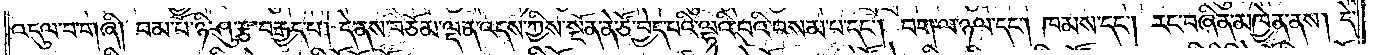འདུལ་བ་གཞི། བམ་པོ་ཉི་ཤུ་རྩ་བརྒྱད་པ། དེ་ནས་བཅོམ་ལྡན་འདས་ཀྱིས་སྔོན་ནེ་ཙོ་བྱེད་པའི་ལྷའི་བུའི་བསམ་པ་དང༌། བག་ལ་ཉལ་དང༌། ཁམས་དང༌། རང་བཞིན་མཁྱེན་ནས། དེ་
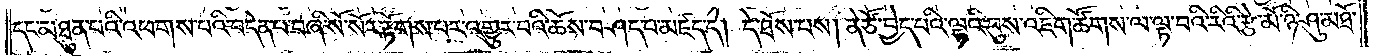དང་མཐུན་པའི་འཕགས་པའི་བདེན་པ་བཞི་སོ་སོར་རྟོགས་པར་འགྱུར་བའི་ཆོས་བཤད་པ་མཛད་དེ། དེ་ཐོས་པས། ནེ་ཙོ་བྱེད་པའི་ལྷའི་བུས་འཇིག་ཚོགས་ལ་ལྟ་བའི་རིའི་རྩེ་མོ་ཉི་ཤུ་མཐོ་
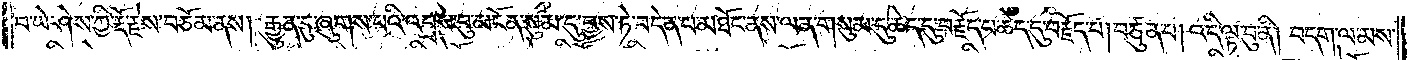བ་ཡེ་ཤེས་ཀྱི་རྡོ་རྗེས་བཅོམ་ནས། རྒྱུན་དུ་ཞུགས་པའི་འབྲས་བུ་མངོན་སུམ་དུ་བྱས་ཏེ་བདེན་པ་མཐོང་ནས་ལན་གསུམ་དུ་ཆེད་དུ་བརྗོད་པ་ཆེད་དུ་བརྗོད་པ། བཙུན་པ། འདི་ལྟ་བུ་ནི། བདག་ལ་མས་
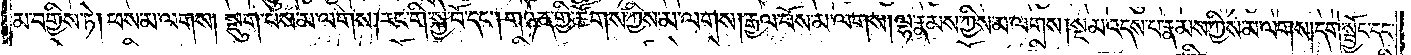མ་བགྱིས་ཏེ། ཕས་མ་ལགས། སྡུག་པས་མ་ལགས། རང་གི་སྐྱེ་བོ་དང༌། །གཉེན་གྱི་ཚོགས་ཀྱིས་མ་ལགས། རྒྱལ་པོས་མ་ལགས། ལྷ་རྣམས་ཀྱིས་མ་ལགས། སྔ་མ་འདས་པ་རྣམས་ཀྱིས་མ་ལགས། དགེ་སྦྱོང་དང༌།
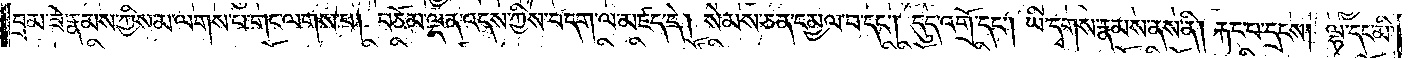བྲམ་ཟེ་རྣམས་ཀྱིས་མ་ལགས་པ་གང་ལགས་པ། བཅོམ་ལྡན་འདས་ཀྱིས་བདག་ལ་མཛད་དེ། སེམས་ཅན་དམྱལ་བ་དང༌། དུད་འགྲོ་དང༌། ཡི་དྭགས་རྣམས་ནས་ནི། རྐང་པ་དྲངས། ལྷ་དང་མི་
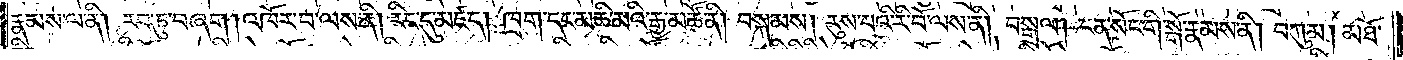རྣམས་ལ་ནི། རབ་ཏུ་བཞག །འཁོར་བ་ལས་ནི། རིང་དུ་མཛད། ཁྲག་དང་མཆི་མའི་རྒྱ་མཚོ་ནི། བསྐམས། རུས་པའི་རི་བོ་ལས་ནི། བསྒྲལ། ངན་སོང་གི་སྒོ་རྣམས་ནི། བཀུམ། མཐོ་
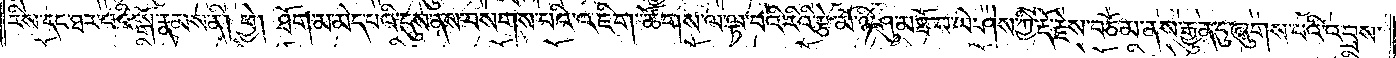རིས་དང་ཐར་པའི་སྒོ་རྣམས་ནི། ཕྱེ། ཐོག་མ་མེད་པའི་དུས་ནས་བསགས་པའི་འཇིག་ཚོགས་ལ་ལྟ་བའི་རིའི་རྩེ་མོ་ཉི་ཤུ་མཐོ་བ་ཡེ་ཤེས་ཀྱི་རྡོ་རྗེས་བཅོམ་ནས་རྒྱུན་དུ་ཞུགས་པའི་འབྲས་
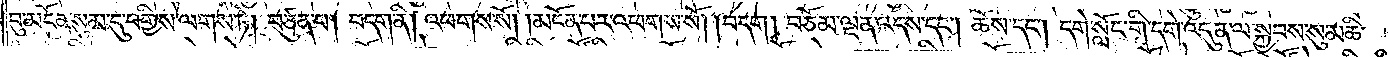བུ་མངོན་སུམ་དུ་བགྱིས་ལགས་ཏེ། བཙུན་པ། བདག་ནི། འཕགས་སོ། །མངོན་པར་འཕགས་སོ། །བདག །བཅོམ་ལྡན་འདས་དང༌། ཆོས་དང༌། དགེ་སློང་གི་དགེ་འདུན་ལ་སྐྱབས་སུ་མཆི་
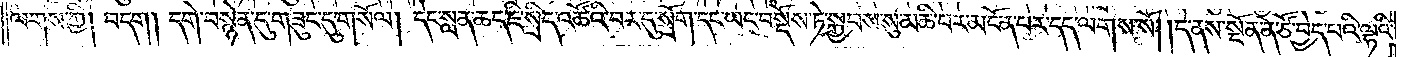ལགས་ཀྱི། བདག །དགེ་བསྙེན་དུ་གཟུང་དུ་གསོལ། །དེང་སླན་ཆད་ཇི་སྲིད་འཚོའི་བར་དུ་སྲོག་དང་ཡང་བསྡོས་ཏེ་སྐྱབས་སུ་མཆི་བར་མངོན་པར་དད་ལགས་སོ། །དེ་ནས་སྔོན་ནེ་ཙོ་བྱེད་པའི་ལྷའི་
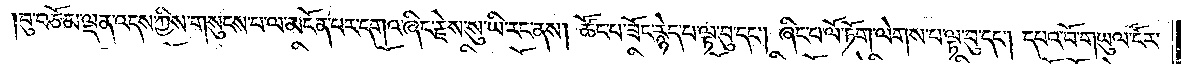བུ་བཅོམ་ལྡན་འདས་ཀྱིས་གསུངས་པ་ལ་མངོན་པར་དགའ་ཞིང་རྗེས་སུ་ཡི་རང་ནས། ཚོང་པ་ཟོང་རྙེད་པ་ལྟ་བུ་དང༌། ཞིང་པ་ལོ་ཏོག་ལེགས་པ་ལྟ་བུ་དང༌། དཔའ་བོ་གཡུལ་ངོར་
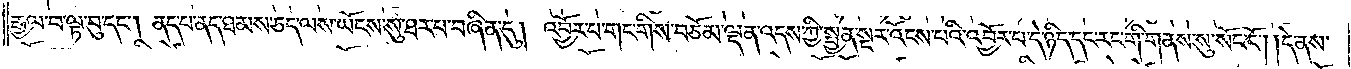རྒྱལ་བ་ལྟ་བུ་དང༌། ནད་པ་ནད་ཐམས་ཅད་ལས་ཡོངས་སུ་ཐར་པ་བཞིན་དུ། འབྱོར་བ་གང་གིས་བཅོམ་ལྡན་འདས་ཀྱི་སྤྱན་སྔར་འོངས་པའི་འབྱོར་པ་དེ་ཉིད་དང་རང་གི་གནས་སུ་སོང་ངོ༌། །དེ་ནས་
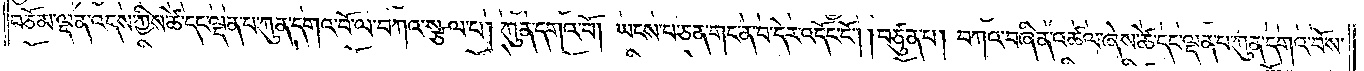བཅོམ་ལྡན་འདས་ཀྱིས་ཚེ་དང་ལྡན་པ་ཀུན་དགའ་བོ་ལ་བཀའ་སྩལ་པ། ཀུན་དགའ་བོ། ཡངས་པ་ཅན་གང་ན་བ་དེར་འདོང་ངོ༌། །བཙུན་པ། བཀའ་བཞིན་འཚལ་ཞེས་ཚེ་དང་ལྡན་པ་ཀུན་དགའ་བོས་
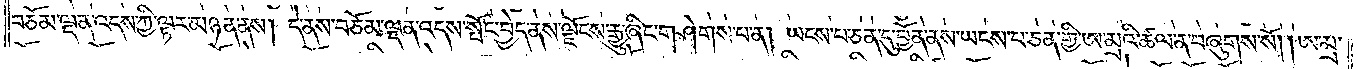བཅོམ་ལྡན་འདས་ཀྱིས་ལྟར་མཉན་ནས། དེ་ནས་བཅོམ་ལྡན་འདས་སྤོང་བྱེད་ནས་ལྗོངས་རྒྱུ་ཞིང་གཤེགས་པ་ན། ཡངས་པ་ཅན་དུ་བྱོན་ནས་ཡངས་པ་ཅན་གྱི་ཨ་མྲའི་ཚལ་ན་བཞུགས་སོ། །ཨ་མྲ་
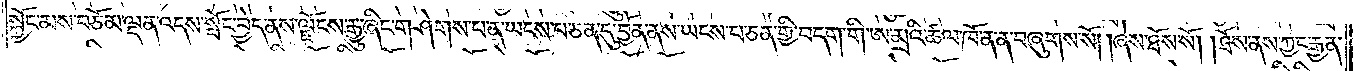སྐྱོང་མས་བཅོམ་ལྡན་འདས་སྤོང་བྱེད་ནས་ལྗོངས་རྒྱུ་ཞིང་གཤེགས་པ་ན་ཡངས་པ་ཅན་དུ་བྱོན་ནས་ཡངས་པ་ཅན་གྱི་བདག་གི་ཨ་མྲའི་ཚལ་ཁོ་ན་ན་བཞུགས་སོ། །ཞེས་ཐོས་སོ། །ཐོས་ནས་ཀྱང་རྒྱན་
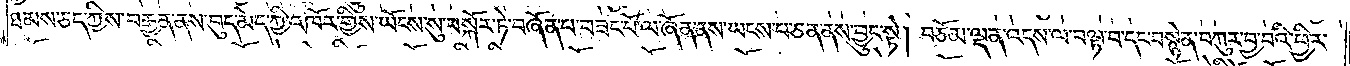ཐམས་ཅད་ཀྱིས་བརྒྱན་ནས་བུད་མེད་ཀྱི་འཁོར་གྱིས་ཡོངས་སུ་བསྐོར་ཏེ་བཞོན་པ་བཟང་པོ་ལ་ཞོན་ནས་ཡངས་པ་ཅན་ནས་བྱུང་སྟེ། བཅོམ་ལྡན་འདས་ལ་བལྟ་བ་དང་བསྙེན་བཀུར་བྱ་བའི་ཕྱིར་
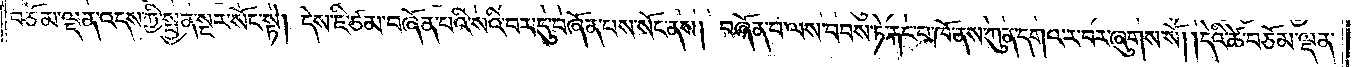བཅོམ་ལྡན་འདས་ཀྱི་སྤྱན་སྔར་སོང་སྟེ། དེས་ཇི་ཙམ་བཞོན་པའི་སའི་བར་དུ་བཞོན་པས་སོང་ནས། བཞོན་པ་ལས་བབས་ཏེ་རྐང་པ་ཁོ་ནས་ཀུན་དགའ་ར་བར་ཞུགས་སོ། །དེའི་ཚེ་བཅོམ་ལྡན་
